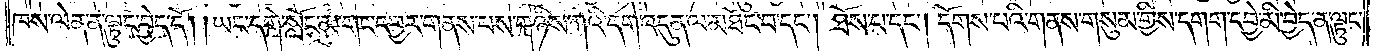ཁས་ལེན་ན་ལྟུང་བྱེད་དོ། །ཡང་དགེ་སློང་མ་གང་དབྱར་གནས་པས་གཉིས་ཀའི་དགེ་འདུན་ལ་མཐོང་བ་དང༌། ཐོས་པ་དང༌། དོགས་པའི་གནས་གསུམ་གྱིས་དགག་དབྱེ་མི་བྱེད་ན་ལྟུང་
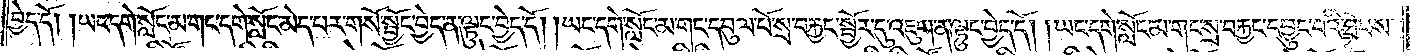བྱེད་དོ། །ཡང་དགེ་སློང་མ་གང་དགེ་སློང་མེད་པར་གསོ་སྦྱོང་བྱེད་ན་ལྟུང་བྱེད་དོ། །ཡང་དགེ་སློང་མ་གང་དབུལ་པོ་སྲ་བརྐྱང་སྦྱོར་དུ་འཇུག་ན་ལྟུང་བྱེད་དོ། །ཡང་དགེ་སློང་མ་གང་སྲ་བརྐྱང་དབྱུང་བའི་ཐབས་
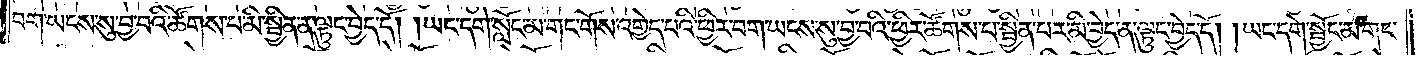བག་ཡངས་སུ་བྱ་བའི་ཚོགས་པ་མི་སྦྱིན་ན་ལྟུང་བྱེད་དོ། །ཡང་དགེ་སློང་མ་གང་གོས་འགྱེད་པའི་ཕྱིར་བག་ཡངས་སུ་བྱ་བའི་ཕྱིར་ཚོགས་པ་སྦྱིན་པར་མི་བྱེད་ན་ལྟུང་བྱེད་དོ། །ཡང་དགེ་སྦྱོང་མ་གང་
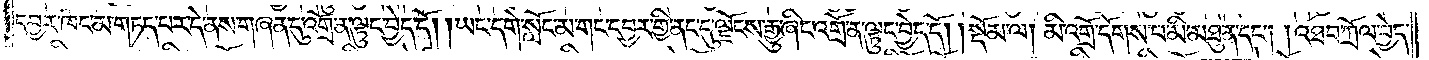དབྱར་ཁང་གཏད་པར་དེ་ནས་གཞན་དུ་འགྲོ་ན་ལྟུང་བྱེད་དོ། །ཡང་དགེ་སློང་མ་གང་དབྱར་གྱི་ནང་དུ་ལྗོངས་རྒྱུ་ཞིང་འགྲོ་ན་ལྟུང་བྱེད་དོ།    །སྡོམ་ལ། མི་འགྲོ་དོགས་མི་མཐུན་དང༌། །འཐབ་ཀྲོལ་བྱེད་
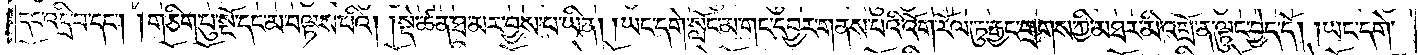དང་འདྲི་བ་དང༌། །གཅིག་པུ་སྔོ་དང་མ་བལྟས་པའི། །སྡེ་ཚན་ཐ་མར་བྱས་པ་ཡིན། །ཡང་དགེ་སློང་མ་གང་དབྱར་གནས་པའི་འོག་རོལ་ཏུ་རྒྱང་གྲགས་ཀྱི་མཐར་མི་འགྲོ་ན་ལྟུང་བྱེད་དོ། །ཡང་དགེ་
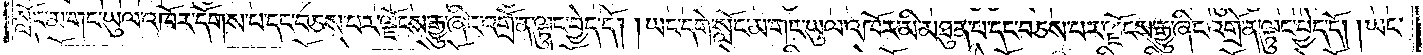སློང་མ་གང་ཡུལ་འཁོར་དོགས་པ་དང་བཅས་པར་ལྗོངས་རྒྱུ་ཞིང་འགྲོ་ན་ལྟུང་བྱེད་དོ། །ཡང་དགེ་སློང་མ་གང་ཡུལ་འཁོར་མི་མཐུན་པ་དང་བཅས་པ་ལྗོངས་རྒྱུ་ཞིང་འགྲོ་ན་ལྟུང་བྱེད་དོ། །ཡང་
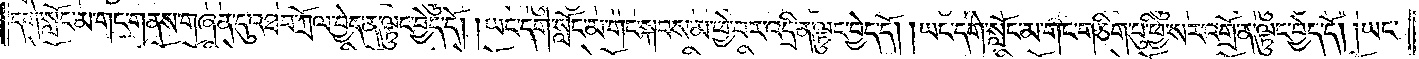དགེ་སློང་མ་གང་གནས་གཞན་དུ་འཐབ་ཀྲོལ་བྱེད་ན་ལྟུང་བྱེད་དོ། །ཡང་དགེ་སློང་མ་གང་སྐབས་མ་ཕྱེ་བར་འདྲི་ན་ལྟུང་བྱེད་དོ། །ཡང་དགེ་སློང་མ་གང་གཅིག་པུ་ཕྱི་སར་འགྲོ་ན་ལྟུང་བྱེད་དོ། །ཡང་
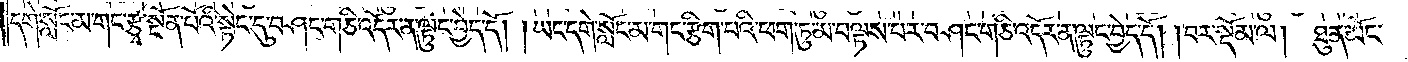དགེ་སློང་མ་གང་རྩྭ་སྔོན་པོའི་སྟེང་དུ་བཤང་གཅི་འདོར་ན་ལྟུང་བྱེད་དོ། །ཡང་དགེ་སློང་མ་གང་རྩིག་པའི་ཕག་ཏུ་མ་བལྟས་པར་བཤང་གཅི་འདོར་ན་ལྟུང་བྱེད་དོ།    །བར་སྡོམ་ལ། ཐུན་མོང་
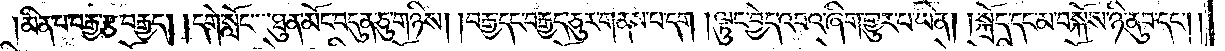མིན་པ་བརྒྱ་རྩ་བརྒྱད། །དགེ་སློང་ཐུན་མོང་བདུན་ཅུ་གཉིས། །བརྒྱ་དང་བརྒྱད་ཅུར་གནས་པ་དག །ལྟུང་བྱེད་འབའ་ཞིག་གྱུར་པ་ཡིན། །སྐྲོད་དང་མ་བསྐོས་ཉི་ནུབ་དང༌། །
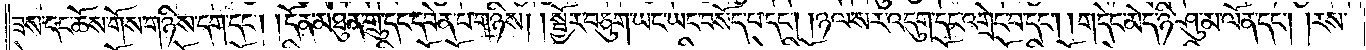ཟས་དང་ཆོས་གོས་གཉིས་དག་དང༌། །དོན་མཐུན་གྲུ་དང་དབེན་པ་གཉིས། །སྦྱོར་བཅུག་ཡང་ཡང་བསོད་པ་དང༌། །ཉལ་སར་འདུག་དང་འགྲེང་བ་དང༌། །གདེང་མེད་ཉི་ཤུ་མ་ལོན་དང༌། །རས་
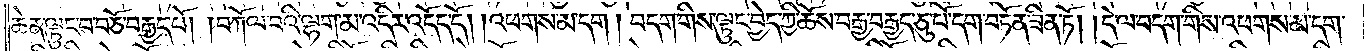ཆེན་ལྟུང་བ་བཅོ་བརྒྱད་པོ། །བཀོལ་པའི་ལྷག་མ་འདིང་འདོད་དོ། །འཕགས་མ་དག །བདག་གིས་ལྟུང་བྱེད་ཀྱི་ཆོས་བརྒྱ་བརྒྱད་ཅུ་པོ་དག་བཏོན་ཟིན་ཏོ། །དེ་ལ་བདག་གིས་འཕགས་མ་དག་
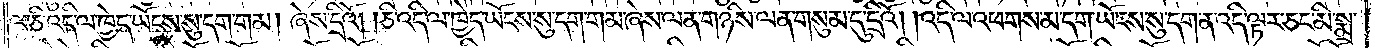ལ་ཅི་འདི་ལ་ཁྱེད་ཡོངས་སུ་དག་གམ། ཞེས་དྲིའོ། །ཅི་འདི་ལ་ཁྱེད་ཡོངས་སུ་དག་གམ་ཞེས་ལན་གཉིས་ལན་གསུམ་དུ་དྲིའོ། །འདི་ལ་འཕགས་མ་དག་ཡོངས་སུ་དག་ན་འདི་ལྟར་ཅང་མི་སྨྲ་
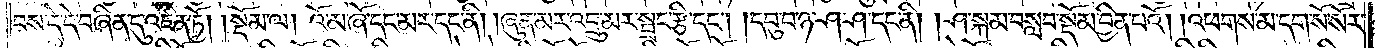བས་དེ་དེ་བཞིན་དུ་འཛིན་ཏོ། །སྡོམ་ལ། འོ་མ་ཞོ་དང་མར་དང་ནི། །ཞུན་མར་འབྲུ་མར་སྦྲང་རྩི་དང༌། །དབུ་བ་ཉ་ཤ་ཤ་དང་ནི། །ཤ་སྐམ་བསླབ་སྡོམ་བྱིན་པའོ། །འཕགས་མ་དག་སོ་སོར་
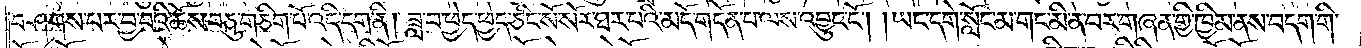བཤགས་པར་བྱ་བའི་ཆོས་བཅུ་གཅིག་པོ་འདི་དག་ནི། ཟླ་བ་ཕྱེད་ཕྱེད་ཅིང་སོ་སོར་ཐར་པའི་མདོ་གདོན་པ་ལས་འབྱུང་ངོ༌། །ཡང་དགེ་སློང་མ་གང་མི་ན་བར་གཞན་གྱི་ཁྱིམ་ནས་བདག་གི་
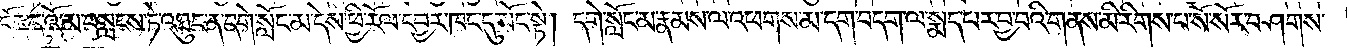དོན་དུ་འོ་མ་བསླངས་ཏེ་འཐུང་ན་དགེ་སློང་མ་དེས་ཕྱི་རོལ་དབྱར་ཁང་དུ་སོང་སྟེ། དགེ་སློང་མ་རྣམས་ལ་འཕགས་མ་དག་བདག་ལ་སྨད་པར་བྱ་བའི་གནས་མི་རིགས་པ་སོ་སོར་བཤགས་
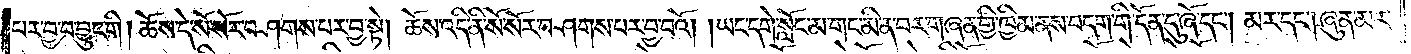པར་བྱ་བ་བྱུང་གི། ཆོས་དེ་སོ་སོར་བཤགས་པར་བྱ་སྟེ། ཆོས་འདི་ནི་སོ་སོར་བཤགས་པར་བྱ་བའོ། །ཡང་དགེ་སློང་མ་གང་མི་ན་བར་གཞན་གྱི་ཁྱིམ་ནས་བདག་གི་དོན་དུ་ཞོ་དང༌། མར་དང༌། ཞུན་མར་
